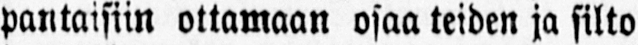pantaisiin ottamaan osaa teiden ja silto-
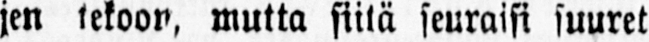jen tekoon, mutta siitä seuraisi suuret
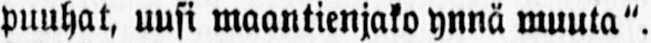puuhat, uusi maantienjako ynnä muuta".
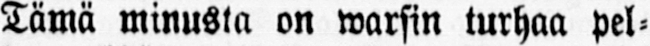Tämä minusta on warsin turhaa pel-
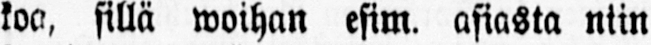koa, sillä woihan esim. asiasta niin
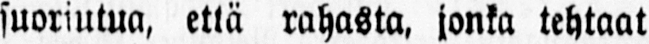suoriutua, että rahasta, jonka tehtaat
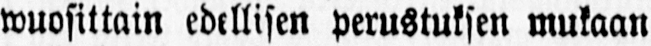wuosittain edellisen perustuksen mukaan
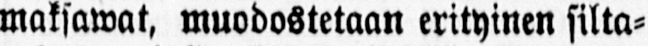maksawat, muodostetaan erityinen silta-
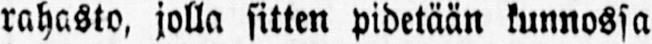rahasto, jolla sitten pidetään kunnossa
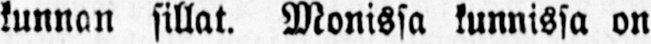kunnan sillat. Monissa kunnissa on
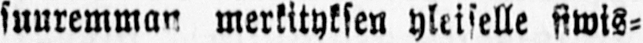suuremman merkityksen yleiselle siwis-
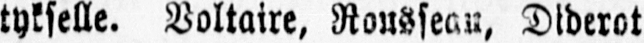tykselle. Voltaire, Rousseau, Diderot
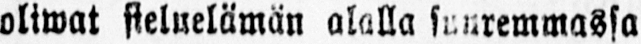oliwat sielueläman alalla suuremmassa
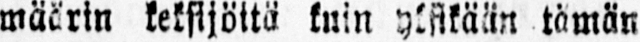määrin keksijöitä kuin ylsikään tämän
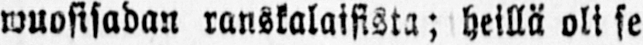wuosisadan ranskalaisista; heillä oli se
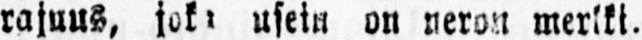rajuus, joka usein on neron merkki.
